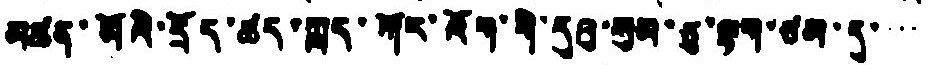མཚན་མོའི་དྲོད་ཚད་ཀླད་ཀོར་འོད་གི་དུའུ་སུམ་ཅུ་ལྷག་ཙམ་དུ་་་་
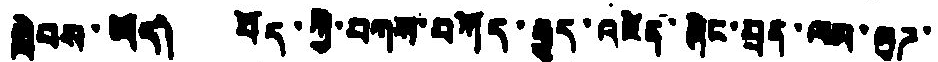སླེབས་ཡོད། བོད་ཀྱི་བཀས་བཀོད་རྒྱུད་འཛིན་ཞིང་ཕྲན་ལམ་ལུཌ་
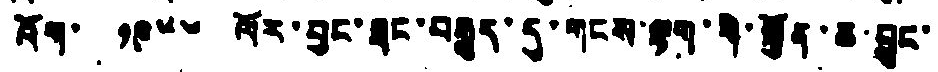འོག་ ༡༩༥༦ ལོར་བྱང་ཐང་བརྒྱུད་དུ་གངས་ལྷག་གི་སྐྱོན་ཆ་བྱུང་
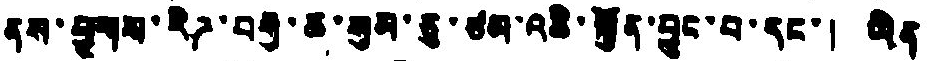ནས་ཕྱུགས་རིཊ་བརྒྱ་ཆ་སུམ་ཅུ་ཙམ་འཆི་སྐྱོན་བྱུང་བ་དང་། ཡིན་
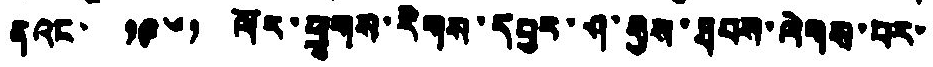ནའང་ ༡༩༦༡ ལོར་ཕྱུགས་རིགས་དབྱར་ཤ་རྒྱས་ཐབས་ལེགས་པར་
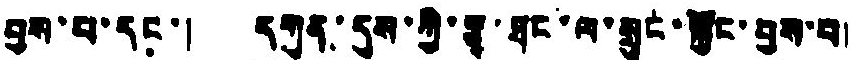བྱས་པ་དང་། དགུན་དུས་ཀྱི་རྩྭ་ཐང་ལ་སྲུང་སྐྱོང་བྱས་པ།
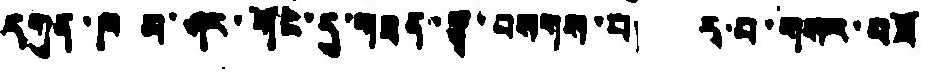དགུན་ཁ མ་ཤར་གོང་དུ་གཟན་རྩྭ་བསགས་པ། རྭ་བ་གསར་བཟོ
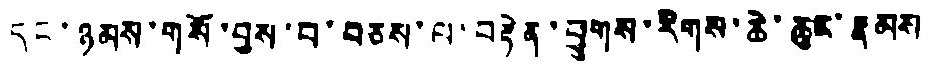དང་ཉམས་གསོ་བྱས་བ་བཅས་ལ་བརྟེན་ཕྱུགས་རིགས་ཆེ་ཆུར་རྣམས
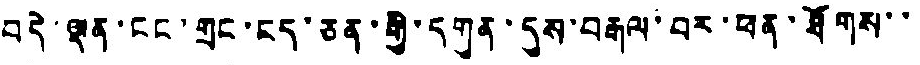བདེ་ལྡན་ངང་གྲང་ངད་ཅན་གྱི་དགུན་དུས་བརྒལ་བར་ཕན་ཐོགས་་
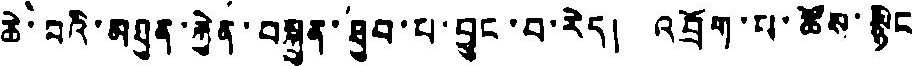ཆེ་བའི་མཐུན་རྐྱེན་བསྐྲུན་ཐུབ་པ་བྱུང་བ་རེད། འབྲོག་པ་ཚོས་སྙིང
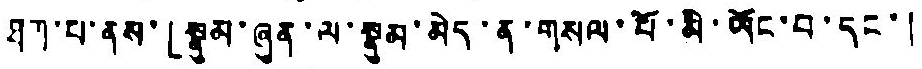ཐག་པ་ནས་「སྣུམ་ཞུན་ལ་སྣུམ་མེད་ན་གསལ་པོ་མི་ཡོང་བ་དང་།
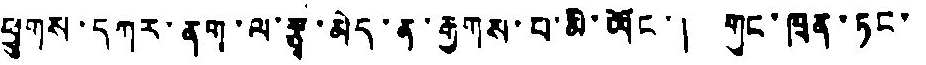ཕྱུགས་དཀར་ནག་ལ་རྩྭ་མེད་ན་རྒྱགས་པ་མི་ཡོང་། གུང་ཁྲན་ཏང་
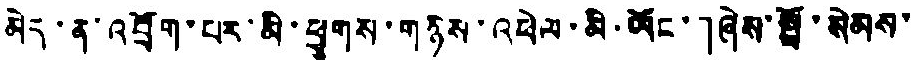མེད་ན་འབྲོག་པར་མི་ཕྱུགས་གཉིས་འཕེལ་མི་ཡོང་」ཞེས་སྤྲོ་སེམས་
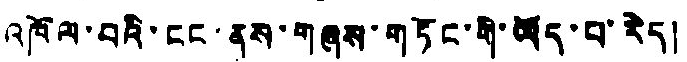འཁོལ་བའི་ངང་ནས་གཞས་གཏོང་གི་ཡོད་པ་རེད།
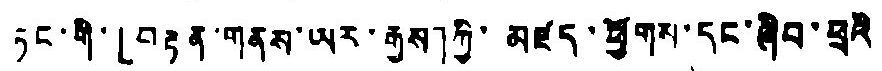ཏང་གི་「བརྟན་གནས་ཡར་རྒྱས」ཀྱི་མཛད་ཕྱོགས་དང་ཞིབ་ཕྲའི
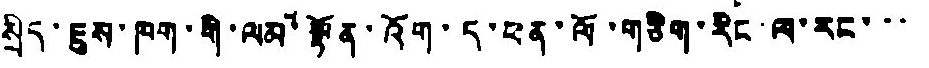སྲིད་ཇུས་ཁག་གི་ལམ་སྟོན་འོག་དུ་ཕན་ལོ་གཅིག་རིང་ལ་རང་་་
